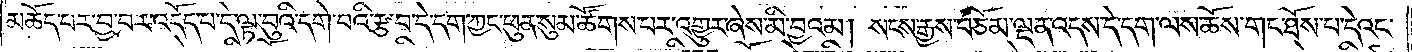མཆོད་པར་བྱ་བར་འདོད་པ་དེ་ལྟ་བུའི་དགེ་བའི་རྩ་བ་དེ་དག་ཀྱང་ཕུན་སུམ་ཚོགས་པར་འགྱུར་ཞེས་མི་བྱའམ། སངས་རྒྱས་བཅོམ་ལྡན་འདས་དེ་དག་ལས་ཆོས་གང་ཐོས་པ་དེའང་
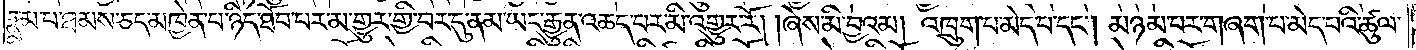རྣམ་པ་ཐམས་ཅད་མཁྱེན་པ་ཉིད་ཐོབ་པར་མ་གྱུར་གྱི་བར་དུ་ནམ་ཡང་རྒྱུན་ཆད་པར་མི་འགྱུར་རོ། །ཞེས་མི་བྱའམ། འཁྲུག་པ་མེད་པ་དང༌། མཉམ་པར་གཞག་པ་མེད་པའི་ཚུལ་
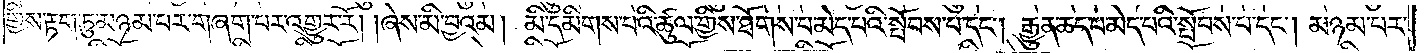གྱིས་རྟག་ཏུ་མཉམ་པར་གཞག་པར་འགྱུར་རོ། །ཞེས་མི་བྱའམ། མི་དམིགས་པའི་ཚུལ་གྱིས་ཐོགས་པ་མེད་པའི་སྤོབས་པ་དང༌། རྒྱུན་ཆད་པ་མེད་པའི་སྤོབས་པ་དང༌། མཉམ་པར་
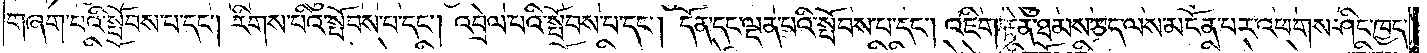གཞག་པའི་སྤོབས་པ་དང༌། རིགས་པའི་སྤོབས་པ་དང༌། འབྲེལ་པའི་སྤོབས་པ་དང༌། དོན་དང་ལྡན་པའི་སྤོབས་པ་དང༌། འཇིག་རྟེན་ཐམས་ཅད་ལས་མངོན་པར་འཕགས་ཤིང་ཁྱད་
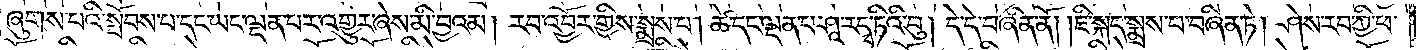ཞུགས་པའི་སྤོབས་པ་དང་ཡང་ལྡན་པར་འགྱུར་ཞེས་མི་བྱའམ། རབ་འབྱོར་གྱིས་སྨྲས་པ། ཚེ་དང་ལྡན་པ་ཤཱ་ར་དྭ་ཏིའི་བུ། དེ་དེ་བཞིན་ནོ། །ཇི་སྐད་སྨྲས་པ་བཞིན་ཏེ། ཤེས་རབ་ཀྱི་ཕ་
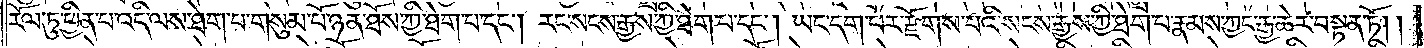རོལ་ཏུ་ཕྱིན་པ་འདི་ལས་ཐེག་པ་གསུམ་པོ་ཉན་ཐོས་ཀྱི་ཐེག་པ་དང༌། རང་སངས་རྒྱས་ཀྱི་ཐེག་པ་དང༌། ཡང་དག་པར་རྫོགས་པའི་སངས་རྒྱས་ཀྱི་ཐེག་པ་རྣམས་ཀྱང་རྒྱ་ཆེར་བསྟན་ཏོ། །
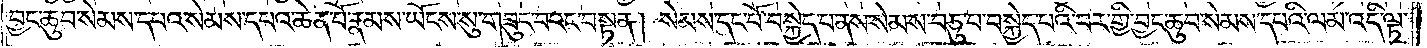བྱང་ཆུབ་སེམས་དཔའ་སེམས་དཔའ་ཆེན་པོ་རྣམས་ཡོངས་སུ་བཟུང་བའང་བསྟན། སེམས་དང་པོ་བསྐྱེད་པ་ནས་སེམས་བཅུ་པ་བསྐྱེད་པའི་བར་གྱི་བྱང་ཆུབ་སེམས་དཔའི་ལམ་འདི་ལྟ་
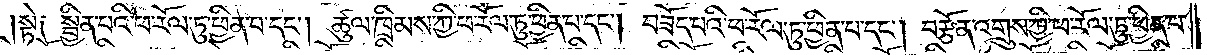སྟེ༏ སྦྱིན་པའི་ཕ་རོལ་ཏུ་ཕྱིན་པ་དང༌། ཚུལ་ཁྲིམས་ཀྱི་ཕ་རོལ་ཏུ་ཕྱིན་པ་དང༌། བཟོད་པའི་ཕ་རོལ་ཏུ་ཕྱིན་པ་དང༌། བརྩོན་འགྲུས་ཀྱི་ཕ་རོལ་ཏུ་ཕྱིན་པ་
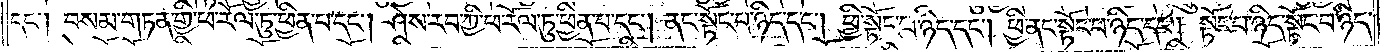དང༌༏ བསམ་གཏན་གྱི་ཕ་རོལ་ཏུ་ཕྱིན་པ་དང༌། ཤེས་རབ་ཀྱི་ཕ་རོལ་ཏུ་ཕྱིན་པ་དང༌། ནང་སྟོང་པ་ཉིད་དང༌། ཕྱི་སྟོང་པ་ཉིད་དང༌། ཕྱི་ནང་སྟོང་པ་ཉིད་དང༌། སྟོང་པ་ཉིད་སྟོང་པ་ཉིད་
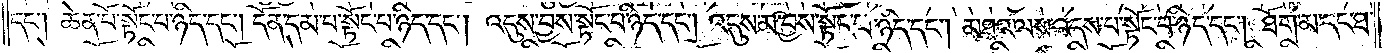དང༌། ཆེན་པོ་སྟོང་པ་ཉིད་དང༌། དོན་དམ་པ་སྟོང་པ་ཉིད་དང༌། འདུས་བྱས་སྟོང་པ་ཉིད་དང༌། འདུས་མ་བྱས་སྟོང་པ་ཉིད་དང༌། མཐའ་ལས་འདས་པ་སྟོང་པ་ཉིད་དང༌། ཐོག་མ་དང་ཐ་
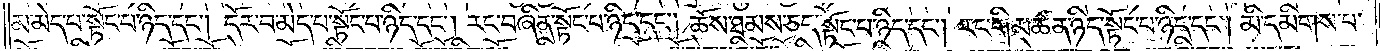མ་མེད་པ་སྟོང་པ་ཉིད་དང༌། དོར་བ་མེད་པ་སྟོང་པ་ཉིད་དང༌། རང་བཞིན་སྟོང་པ་ཉིད་དང༌། ཆོས་ཐམས་ཅད་སྟོང་པ་ཉིད་དང༌། རང་གི་མཚན་ཉིད་སྟོང་པ་ཉིད་དང༌། མི་དམིགས་པ་
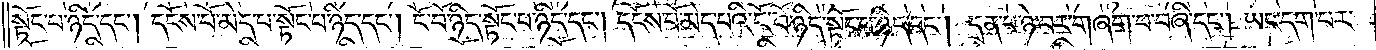སྟོང་པ་ཉིད་དང༌། དངོས་པོ་མེད་པ་སྟོང་པ་ཉིད་དང༌། ངོ་བོ་ཉིད་སྟོང་པ་ཉིད་དང༌། དངོས་པོ་མེད་པའི་ངོ་བོ་ཉིད་སྟོང་པ་ཉིད་དང༌། དྲན་པ་ཉེ་བར་གཞག་པ་བཞི་དང༌། ཡང་དག་པར་
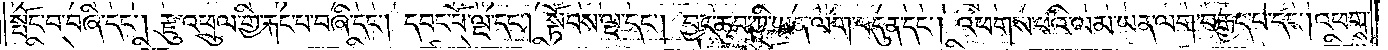སྤོང་བ་བཞི་དང༌། རྫུ་འཕྲུལ་གྱི་རྐང་པ་བཞི་དང༌། དབང་པོ་ལྔ་དང༌། སྟོབས་ལྔ་དང༌། བྱང་ཆུབ་ཀྱི་ཡན་ལག་བདུན་དང༌། འཕགས་པའི་ལམ་ཡན་ལག་བརྒྱད་པ་དང༌། འཕགས་
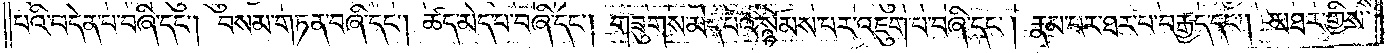པའི་བདེན་པ་བཞི་དང༌། བསམ་གཏན་བཞི་དང༌། ཚད་མེད་པ་བཞི་དང༌། གཟུགས་མེད་པའི་སྙོམས་པར་འཇུག་པ་བཞི་དང༌། རྣམ་པར་ཐར་པ་བརྒྱད་དང༌། མཐར་གྱིས་
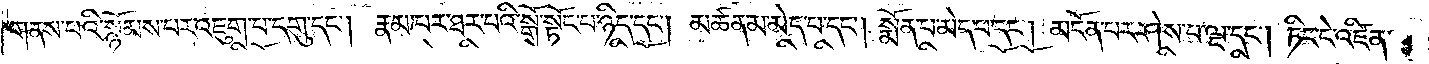གནས་པའི་སྙོམས་པར་འཇུག་པ་དགུ་དང༌། རྣམ་པར་ཐར་པའི་སྒོ་སྟོང་པ་ཉིད་དང༌། མཚན་མ་མེད་པ་དང༌། སྨོན་པ་མེད་པ་དང༌། མངོན་པར་ཤེས་པ་ལྔ་དང༌། ཏིང་ངེ་འཛིན་
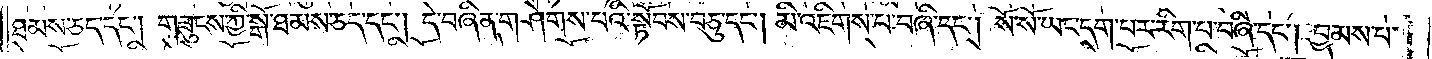ཐམས་ཅད་དང༌། གཟུངས་ཀྱི་སྒོ་ཐམས་ཅད་དང༌། དེ་བཞིན་གཤེགས་པའི་སྟོབས་བཅུ་དང༌། མི་འཇིགས་པ་བཞི་དང༌། སོ་སོ་ཡང་དག་པར་རིག་པ་བཞི་དང༌། བྱམས་པ་
